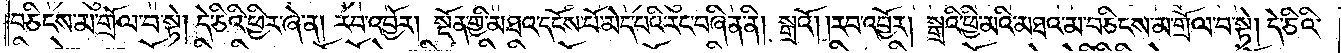བཅིངས་མ་གྲོལ་བ་སྟེ། དེ་ཅིའི་ཕྱིར་ཞེ་ན། རབ་འབྱོར། སྔོན་གྱི་མཐའ་དངོས་པོ་མེད་པའི་རང་བཞིན་ནི། སྒྲའོ། །རབ་འབྱོར། སྒྲའི་ཕྱི་མའི་མཐའ་མ་བཅིངས་མ་གྲོལ་བ་སྟེ། དེ་ཅིའི་
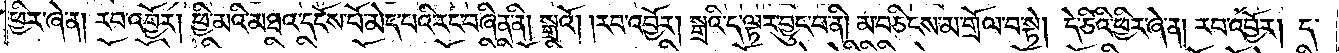ཕྱིར་ཞེ་ན། རབ་འབྱོར། ཕྱི་མའི་མཐའ་དངོས་པོ་མེད་པའི་རང་བཞིན་ནི། སྒྲའོ། །རབ་འབྱོར། སྒྲའི་ད་ལྟར་བྱུང་བ་ནི། མ་བཅིངས་མ་གྲོལ་བ་སྟེ། དེ་ཅིའི་ཕྱིར་ཞེ་ན། རབ་འབྱོར། ད་
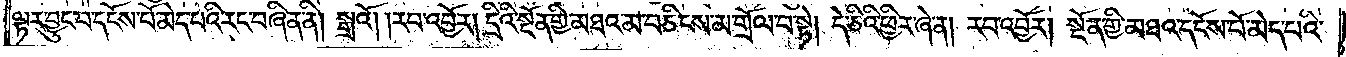ལྟར་བྱུང་བ་དངོས་པོ་མེད་པའི་རང་བཞིན་ནི། སྒྲའོ། །རབ་འབྱོར། དྲིའི་སྔོན་གྱི་མཐའ་མ་བཅིངས་མ་གྲོལ་བ་སྟེ། དེ་ཅིའི་ཕྱིར་ཞེ་ན། རབ་འབྱོར། སྔོན་གྱི་མཐའ་དངོས་པོ་མེད་པའི་
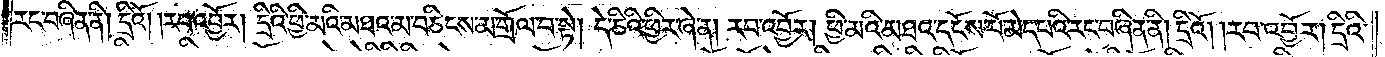རང་བཞིན་ནི། དྲིའོ། །རབ་འབྱོར། དྲིའི་ཕྱི་མའི་མཐའ་མ་བཅིངས་མ་གྲོལ་བ་སྟེ། དེ་ཅིའི་ཕྱིར་ཞེ་ན། རབ་འབྱོར། ཕྱི་མའི་མཐའ་དངོས་པོ་མེད་པའི་རང་བཞིན་ནི། དྲིའོ། །རབ་འབྱོར། དྲིའི་
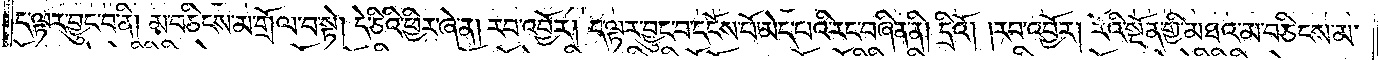ད་ལྟར་བྱུང་བ་ནི། མ་བཅིངས་མ་གྲོལ་བ་སྟེ། དེ་ཅིའི་ཕྱིར་ཞེ་ན། རབ་འབྱོར། ད་ལྟར་བྱུང་བ་དངོས་པོ་མེད་པའི་རང་བཞིན་ནི། དྲིའོ། །རབ་འབྱོར། རོའི་སྔོན་གྱི་མཐའ་མ་བཅིངས་མ་
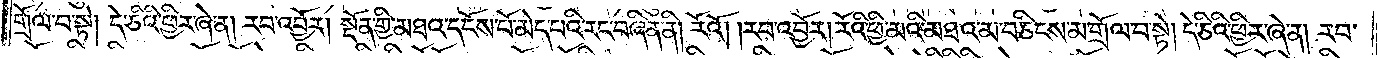གྲོལ་བ་སྟེ། དེ་ཅིའི་ཕྱིར་ཞེ་ན། རབ་འབྱོར། སྔོན་གྱི་མཐའ་དངོས་པོ་མེད་པའི་རང་བཞིན་ནི། རོའོ། །རབ་འབྱོར། རོའི་ཕྱི་མའི་མཐའ་མ་བཅིངས་མ་གྲོལ་བ་སྟེ། དེ་ཅིའི་ཕྱིར་ཞེ་ན། རབ་
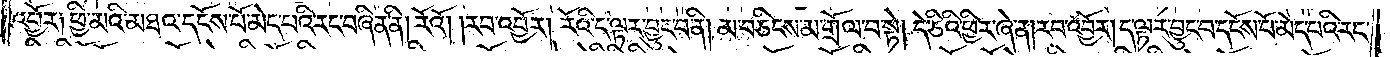འབྱོར༑ ཕྱི་མའི་མཐའ་དངོས་པོ་མེད་པའི་རང་བཞིན་ནི། རོའོ། །རབ་འབྱོར། རོའི་ད་ལྟར་བྱུང་བ་ནི། མ་བཅིངས་མ་གྲོལ་བ་སྟེ། དེ་ཅིའི་ཕྱིར་ཞེ་ན། རབ་འབྱོར། ད་ལྟར་བྱུང་བ་དངོས་པོ་མེད་པའི་རང་
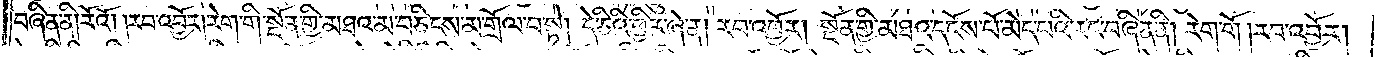བཞིན་ནི། རོའོ། །རབ་འབྱོར། རེག་གི་སྔོན་གྱི་མཐའ་མ་བཅིངས་མ་གྲོལ་བ་སྟེ། དེ་ཅིའི་ཕྱིར་ཞེ་ན། རབ་འབྱོར། སྔོན་གྱི་མཐའ་དངོས་པོ་མེད་པའི་རང་བཞིན་ནི། རེག་གོ། རབ་འབྱོར།
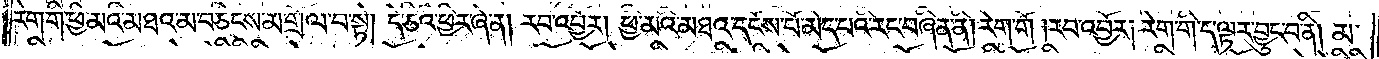རེག་གི་ཕྱི་མའི་མཐའ་མ་བཅིངས་མ་གྲོལ་བ་སྟེ། དེ་ཅིའི་ཕྱིར་ཞེ་ན། རབ་འབྱོར། ཕྱི་མའི་མཐའ་དངོས་པོ་མེད་པའི་རང་བཞིན་ནི། རེག་གོ །རབ་འབྱོར། རེག་གི་ད་ལྟར་བྱུང་བ་ནི། མ་
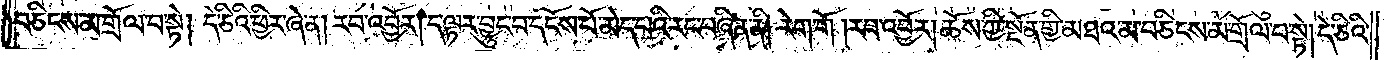བཅིངས་མ་གྲོལ་བ་སྟེ། དེ་ཅིའི་ཕྱིར་ཞེ་ན། རབ་འབྱོར། ད་ལྟར་བྱུང་བ་དངོས་པོ་མེད་པའི་རང་བཞིན་ནི། རེག་གོ །རབ་འབྱོར། ཆོས་ཀྱི་སྔོན་གྱི་མཐའ་མ་བཅིངས་མ་གྲོལ་བ་སྟེ། དེ་ཅིའི་
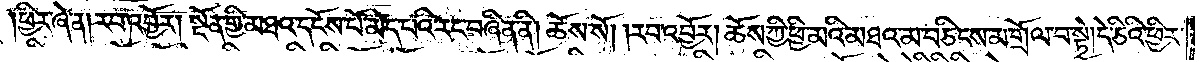ཕྱིར་ཞེ་ན། རབ་འབྱོར། སྔོན་གྱི་མཐའ་དངོས་པོ་མེད་པའི་རང་བཞིན་ནི། ཆོས་སོ། །རབ་འབྱོར། ཆོས་ཀྱི་ཕྱི་མའི་མཐའ་མ་བཅིངས་མ་གྲོལ་བ་སྟེ། དེ་ཅིའི་ཕྱིར་
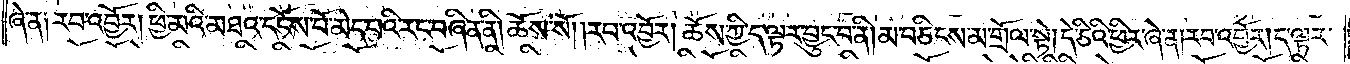ཞེ་ན༑ རབ་འབྱོར། ཕྱི་མའི་མཐའ་དངོས་པོ་མེད་པའི་རང་བཞིན་ནི། ཆོས་སོ། །རབ་འབྱོར། ཆོས་ཀྱི་ད་ལྟར་བྱུང་བ་ནི། མ་བཅིངས་མ་གྲོལ་བ་སྟེ། དེ་ཅིའི་ཕྱིར་ཞེ་ན། རབ་འབྱོར། ད་ལྟར་
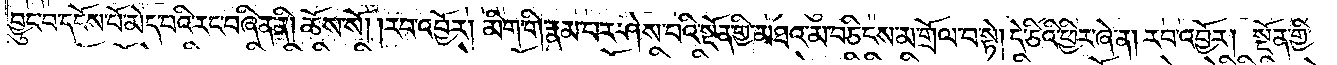བྱུང་བ་དངོས་པོ་མེད་པའི་རང་བཞིན་ནི། ཆོས་སོ། །རབ་འབྱོར། མིག་གི་རྣམ་པར་ཤེས་པའི་སྔོན་གྱི་མཐའ་མ་བཅིངས་མ་གྲོལ་བ་སྟེ། དེ་ཅིའི་ཕྱིར་ཞེ་ན། རབ་འབྱོར། སྔོན་གྱི་
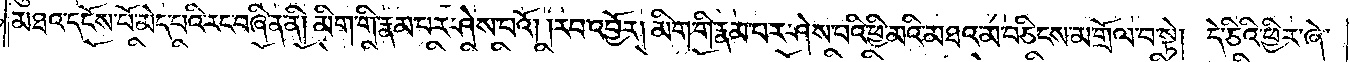མཐའ་དངོས་པོ་མེད་པའི་རང་བཞིན་ནི། མིག་གི་རྣམ་པར་ཤེས་པའོ། །རབ་འབྱོར། མིག་གི་རྣམ་པར་ཤེས་པའི་ཕྱི་མའི་མཐའ་མ་བཅིངས་མ་གྲོལ་བ་སྟེ། དེ་ཅིའི་ཕྱིར་ཞེ་
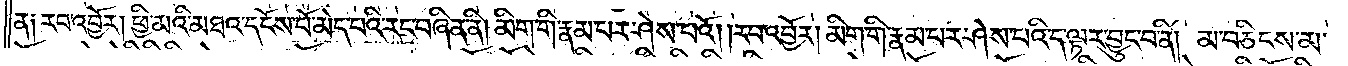ན༑ རབ་འབྱོར། ཕྱི་མའི་མཐའ་དངོས་པོ་མེད་པའི་རང་བཞིན་ནི། མིག་གི་རྣམ་པར་ཤེས་པའོ། །རབ་འབྱོར། མིག་གི་རྣམ་པར་ཤེས་པའི་ད་ལྟར་བྱུང་བ་ནི། མ་བཅིངས་མ་
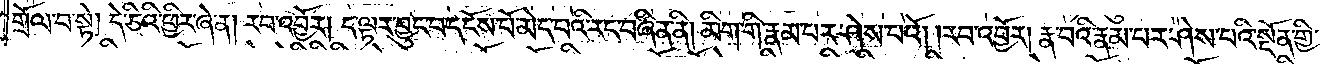གྲོལ་བ་སྟེ། དེ་ཅིའི་ཕྱིར་ཞེ་ན། རབ་འབྱོར། ད་ལྟར་བྱུང་བ་དངོས་པོ་མེད་པའི་རང་བཞིན་ནི། མིག་གི་རྣམ་པར་ཤེས་པའོ། །རབ་འབྱོར། རྣ་བའི་རྣམ་པར་ཤེས་པའི་སྔོན་གྱི་
